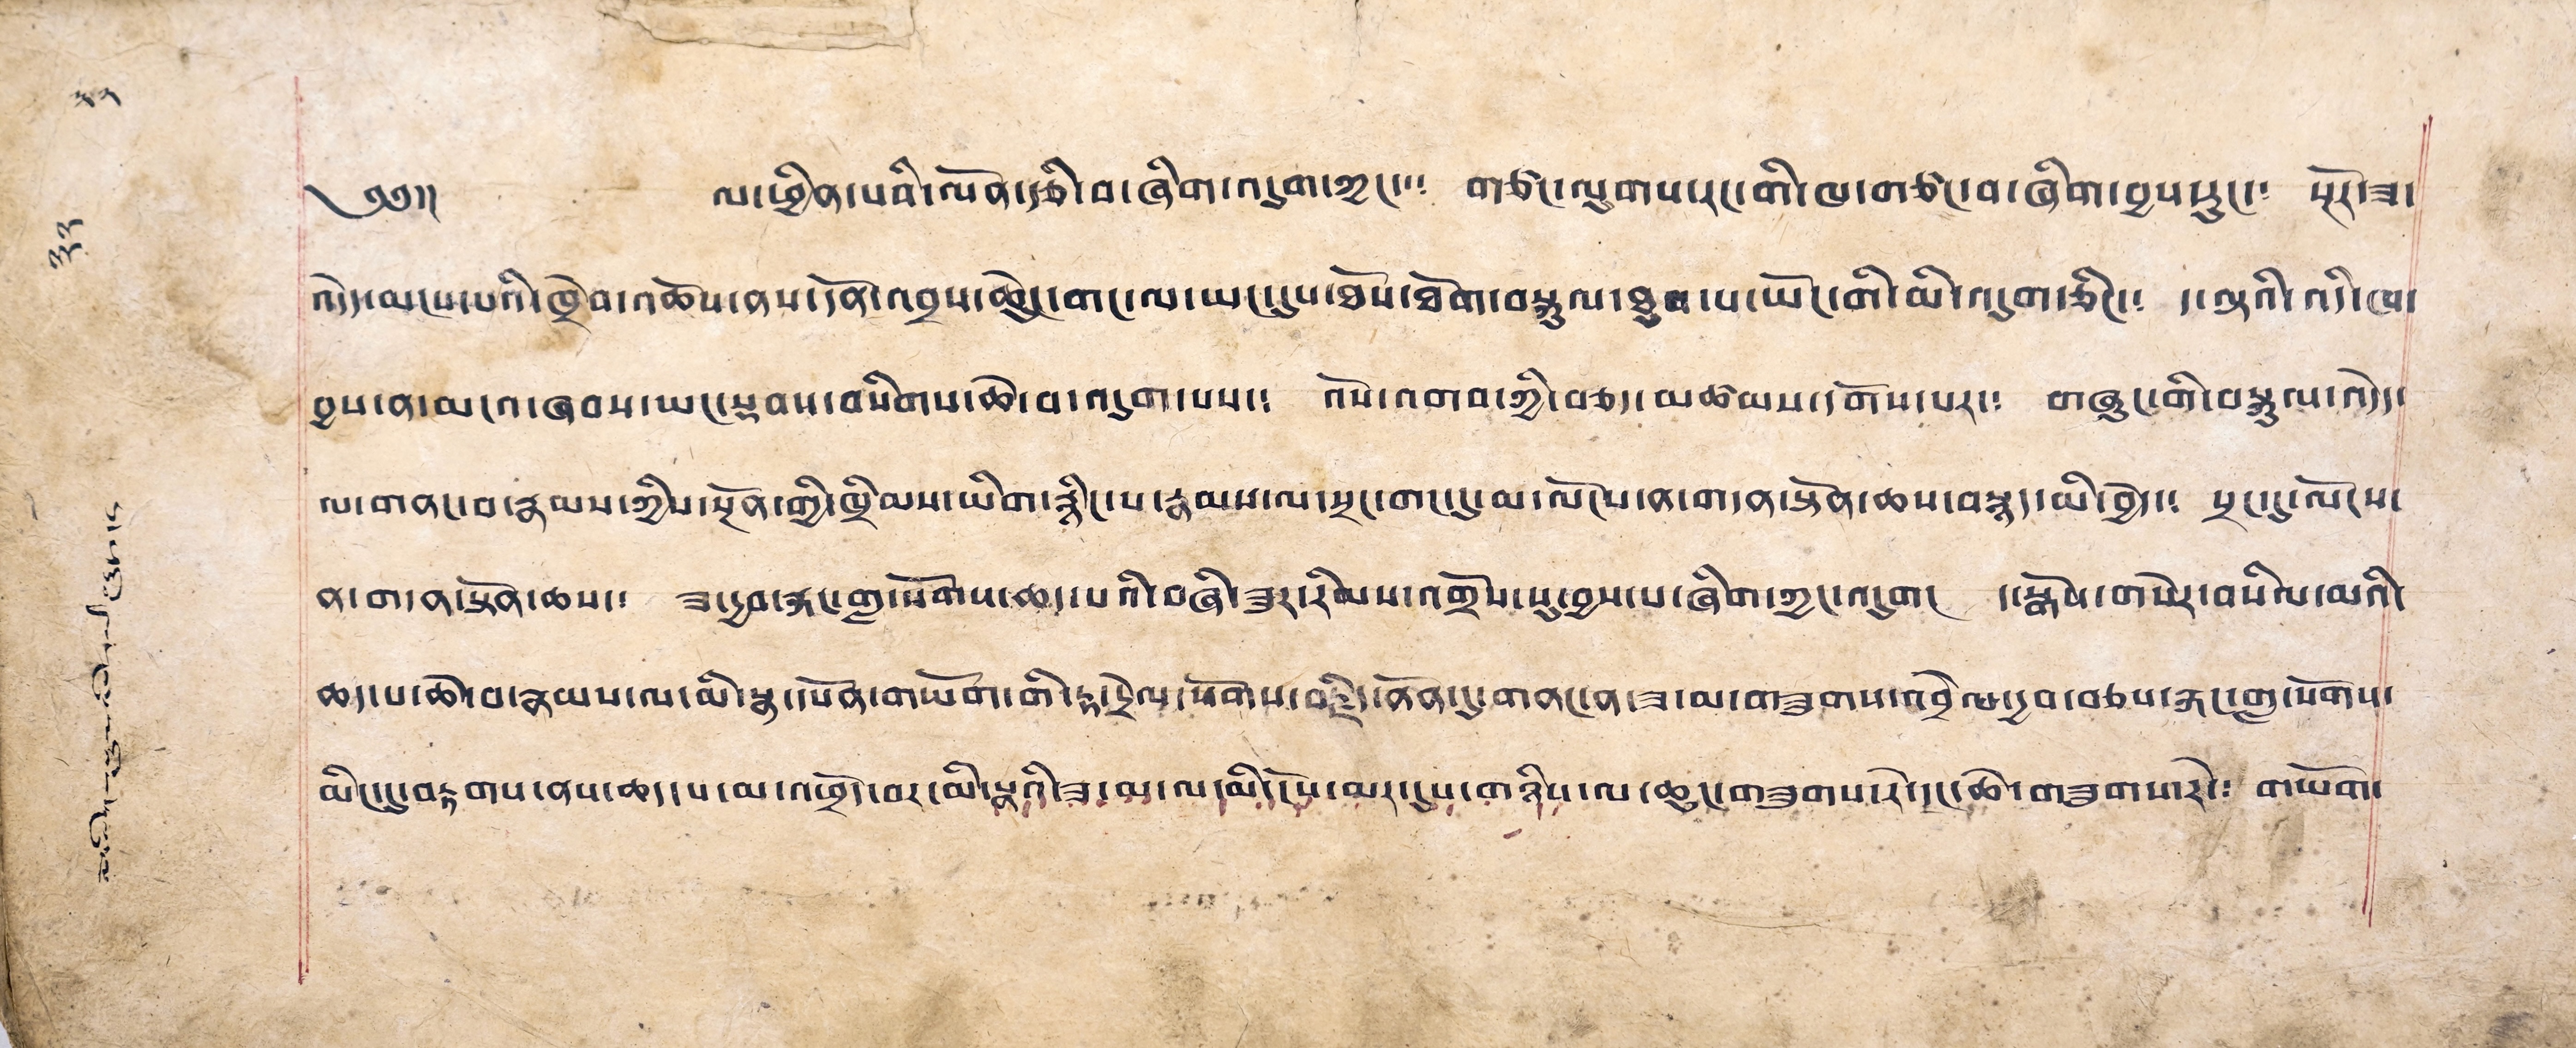༣༢
༣༢
ལམ་ལེགས་ཕྱུག་འཕེལ་མི་བརྒྱུད་དར།
༄༅།། ལ་ཕྱིན་པའི་ལོན་རྩི་བ་ཞིག་འདུག་ཀྱང་་༴ གཙང་ལུགས་རང་གི་ཁ་གཙང་བ་ཞིག་བྱས་རུང་༴ སྔོར་ཟ་
འདོད་མངས་པའི་ཁྲེབ་འཆོས་ནས་དོན་འབྲས་ཆེུང་གང་ལ་ཡང་དུས་ཐོས་ཐོག་བསྐུལ་ཐབ་པ་ཡོང་གི་མི་འདུག་ཅིང་༴ ད་ལྟའི་འདི་ཁ་
བྱས་ན་མངའ་ཞབས་ཡང་སྡབས་བསིགས་ཆེ་བ་འདུག་པས་༴ འོས་འགབ་ཀྱི་བཅད་མཚམས་དགོས་པར་༴ གཞུང་གི་བསྐུལ་འདོད་
ལ་གནང་བ་རྣམས་ཀྱིས་སྔོན་གྱི་ཁྲིམས་ཡིག་རྙིང་པ་རྣམས་ལ་སྲང་གང་དུ་མ་ལོངས་ན་གདན་སྟོན་ཆས་བསྙད་མི་བྱེད་༴ སྲང་དུ་ལོངས་
ན་གནད་སྟོན་ཆས་༴ ཟ་དྱབ་རྐང་གླ་སོགས་ཆད་པའི་བཞི་ཟུར་རིམས་འགྲོས་སུ་བྱས་པ་ཞིག་ཀྱང་འདུག། ད་སྒོས་གསེར་བསིལ་མའི་
ཆད་པ་ཆེ་བ་རྣམས་ལ་མི་སྣ་དཔོན་གཡོག་གི་རྟ་དྲེལ་སོགས་བརྗིད་ནོན་དུ་གནང་ན་ཟ་མ་གཟུགས་འབྲེལ་དྱབ་བཅས་རྐང་གླ་སོགས་
མིང་དུ་བརྟགས་ནས་ཆད་པ་མ་འཕྲོད་བར་མི་སྣའི་ཟ་མ་ལ་མི་དོས་མར་དུས་གཉིས་ལ་ཆུང་གཟུགས་རེ་དང་ཆེ་གཟུགས་རེ་༴ གཡོག་
